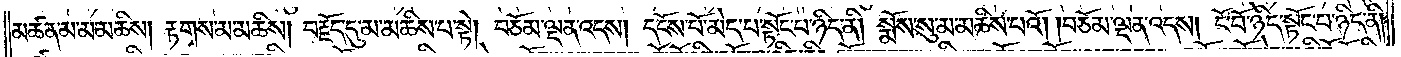མཚན་མ་མ་མཆིས། རྟགས་མ་མཆིས། བརྗོད་དུ་མ་མཆིས་པ་སྟེ། བཅོམ་ལྡན་འདས། དངོས་པོ་མེད་པ་སྟོང་པ་ཉིད་ནི། སྨོས་སུ་མ་མཆིས་པའོ། །བཅོམ་ལྡན་འདས། ངོ་བོ་ཉིད་སྟོང་པ་ཉིད་ནི།
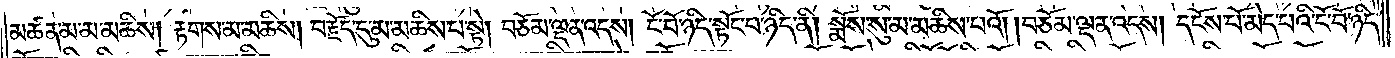མཚན་མ་མ་མཆིས། རྟགས་མ་མཆིས། བརྗོད་དུ་མ་མཆིས་པ་སྟེ། བཅོམ་ལྡན་འདས། ངོ་བོ་ཉིད་སྟོང་པ་ཉིད་ནི། སྨོས་སུ་མ་མཆིས་པའོ། །བཅོམ་ལྡན་འདས། དངོས་པོ་མེད་པའི་ངོ་བོ་ཉིད་
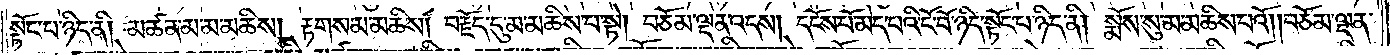སྟོང་པ་ཉིད་ནི། མཚན་མ་མ་མཆིས། རྟགས་མ་མཆིས། བརྗོད་དུ་མ་མཆིས་པ་སྟེ། བཅོམ་ལྡན་འདས། དངོས་པོ་མེད་པའི་ངོ་བོ་ཉིད་སྟོང་པ་ཉིད་ནི། སྨོས་སུ་མ་མཆིས་པའོ། །བཅོམ་ལྡན་
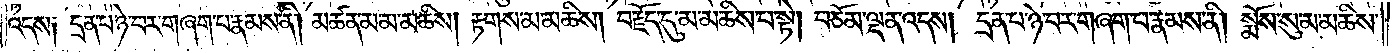འདས༑ དྲན་པ་ཉེ་བར་གཞག་པ་རྣམས་ནི། མཚན་མ་མ་མཆིས། རྟགས་མ་མཆིས། བརྗོད་དུ་མ་མཆིས་པ་སྟེ། བཅོམ་ལྡན་འདས། དྲན་པ་ཉེ་བར་གཞག་པ་རྣམས་ནི། སྨོས་སུ་མ་མཆིས་
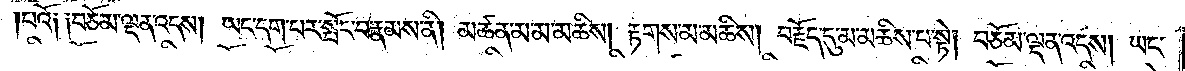པའོ༑ ༑བཅོམ་ལྡན་འདས། ཡང་དག་པར་སྤོང་བ་རྣམས་ནི། མཚན་མ་མ་མཆིས། རྟགས་མ་མཆིས། བརྗོད་དུ་མ་མཆིས་པ་སྟེ། བཅོམ་ལྡན་འདས། ཡང་
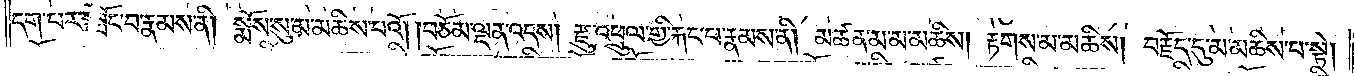དག་པར་སྤོང་བ་རྣམས་ནི། སྨོས་སུ་མ་མཆིས་པའོ། །བཅོམ་ལྡན་འདས། རྫུ་འཕྲུལ་གྱི་རྐང་པ་རྣམས་ནི། མཚན་མ་མ་མཆིས། རྟགས་མ་མཆིས། བརྗོད་དུ་མ་མཆིས་པ་སྟེ།
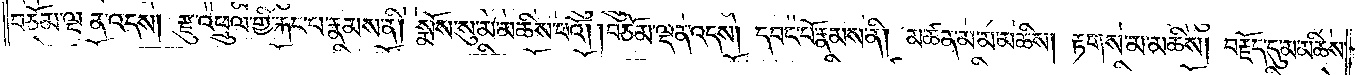བཅོམ་ལྡན་འདས། རྫུ་འཕྲུལ་གྱི་རྐང་པ་རྣམས་ནི། སྨོས་སུ་མ་མཆིས་པའོ། །བཅོམ་ལྡན་འདས། དབང་པོ་རྣམས་ནི། མཚན་མ་མ་མཆིས། རྟགས་མ་མཆིས། བརྗོད་དུ་མ་མཆིས་
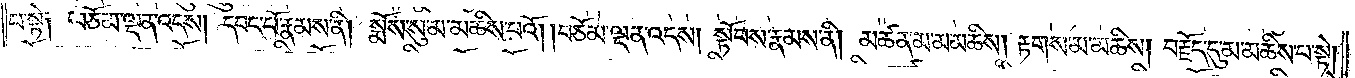པ་སྟེ༑ བཅོམ་ལྡན་འདས། དབང་པོ་རྣམས་ནི། སྨོས་སུ་མ་མཆིས་པའོ། །བཅོམ་ལྡན་འདས། སྟོབས་རྣམས་ནི། མཚན་མ་མ་མཆིས། རྟགས་མ་མཆིས། བརྗོད་དུ་མ་མཆིས་པ་སྟེ།
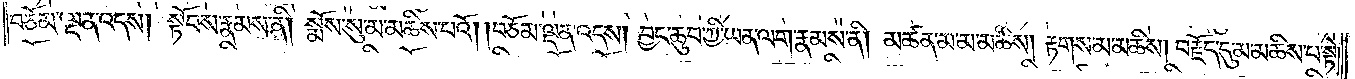བཅོམ་ལྡན་འདས། སྟོབས་རྣམས་ནི། སྨོས་སུ་མ་མཆིས་པའོ། །བཅོམ་ལྡན་འདས། བྱང་ཆུབ་ཀྱི་ཡན་ལག་རྣམས་ནི། མཚན་མ་མ་མཆིས། རྟགས་མ་མཆིས། བརྗོད་དུ་མ་མཆིས་པ་སྟེ།
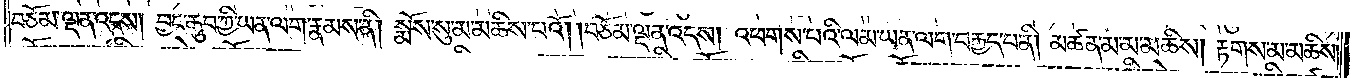བཅོམ་ལྡན་འདས། བྱང་ཆུབ་ཀྱི་ཡན་ལག་རྣམས་ནི། སྨོས་སུ་མ་མཆིས་པའོ། །བཅོམ་ལྡན་འདས། འཕགས་པའི་ལམ་ཡན་ལག་བརྒྱད་པ་ནི། མཚན་མ་མ་མཆིས། རྟགས་མ་མཆིས།
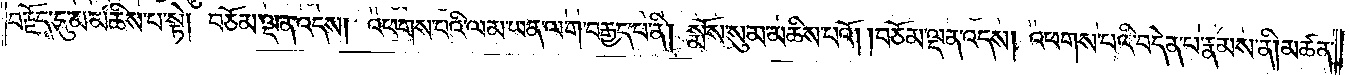བརྗོད་དུ་མ་མཆིས་པ་སྟེ། བཅོམ་ལྡན་འདས། འཕགས་པའི་ལམ་ཡན་ལག་བརྒྱད་པ་ནི། སྨོས་སུ་མ་མཆིས་པའོ། །བཅོམ་ལྡན་འདས། འཕགས་པའི་བདེན་པ་རྣམས་ནི། མཚན་
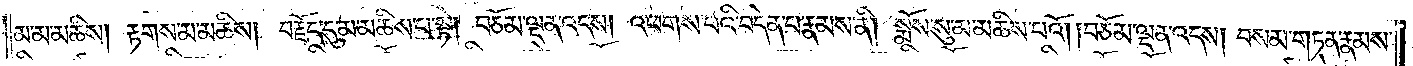མ་མ་མཆིས། རྟགས་མ་མཆིས། བརྗོད་དུ་མ་མཆིས་པ་སྟེ། བཅོམ་ལྡན་འདས། འཕགས་པའི་བདེན་པ་རྣམས་ནི། སྨོས་སུ་མ་མཆིས་པའོ། །བཅོམ་ལྡན་འདས། བསམ་གཏན་རྣམས་
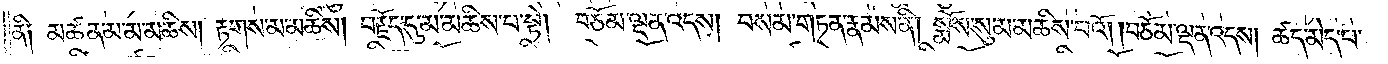ནི༑ མཚན་མ་མ་མཆིས། རྟགས་མ་མཆིས། བརྗོད་དུ་མ་མཆིས་པ་སྟེ། བཅོམ་ལྡན་འདས། བསམ་གཏན་རྣམས་ནི། སྨོས་སུ་མ་མཆིས་པའོ། །བཅོམ་ལྡན་འདས། ཚད་མེད་པ་
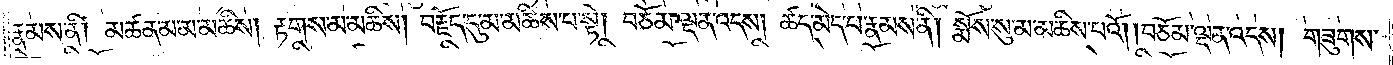རྣམས་ནི། མཚན་མ་མ་མཆིས། རྟགས་མ་མཆིས། བརྗོད་དུ་མ་མཆིས་པ་སྟེ། བཅོམ་ལྡན་འདས། ཚད་མེད་པ་རྣམས་ནི། སྨོས་སུ་མ་མཆིས་པའོ། །བཅོམ་ལྡན་འདས། གཟུགས་
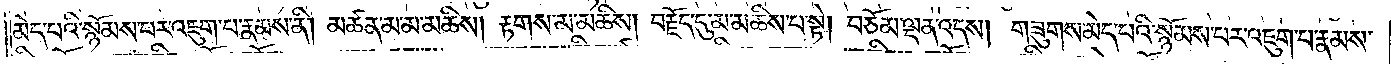མེད་པའི་སྙོམས་པར་འཇུག་པ་རྣམས་ནི། མཚན་མ་མ་མཆིས། རྟགས་མ་མཆིས། བརྗོད་དུ་མ་མཆིས་པ་སྟེ། བཅོམ་ལྡན་འདས། གཟུགས་མེད་པའི་སྙོམས་པར་འཇུག་པ་རྣམས་
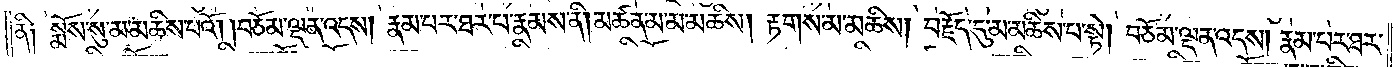ནི༑ སྨོས་སུ་མ་མཆིས་པའོ། །བཅོམ་ལྡན་འདས། རྣམ་པར་ཐར་པ་རྣམས་ནི། མཚན་མ་མ་མཆིས། རྟགས་མ་མཆིས། བརྗོད་དུ་མ་མཆིས་པ་སྟེ། བཅོམ་ལྡན་འདས། རྣམ་པར་ཐར་
